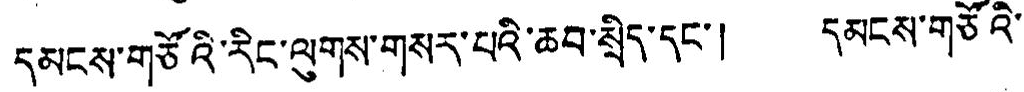དམངས་གཙོའི་རིང་ལུགས་གསར་པའི་ཆབ་སྲིད་དང་། དམངས་གཙོའི་
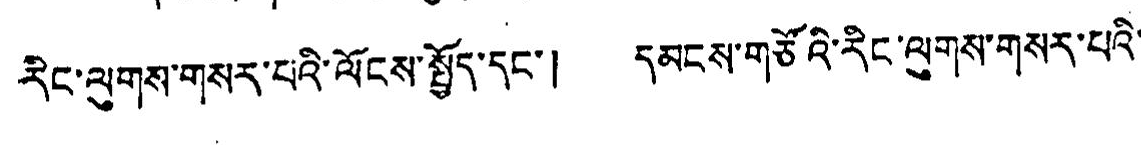རིང་ལུགས་གསར་པའི་ལོངས་སྤྱོད་དང་། དམངས་གཙོའི་རིང་ལུགས་གསར་པའི་
